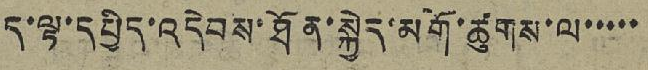ད་ལྟ་དཔྱིད་འདེབས་ཐོན་སྐྱེད་མགོ་ཚུགས་ལ་་་་་
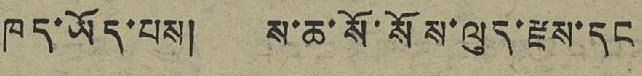ཁད་ཡོད་པས། ས་ཆ་སོ་སོས་ལུད་རྫས་དང
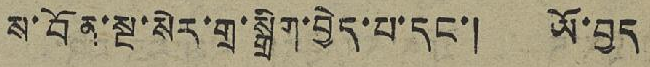ས་བོན་སྔ་སེར་གྲ་སྒྲིག་བྱེད་པ་དང་། ཡོ་བྱད
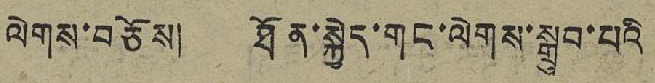ལེགས་བཅོས། ཐོན་སྐྱེད་གང་ལེགས་སྒྲུབ་པའི
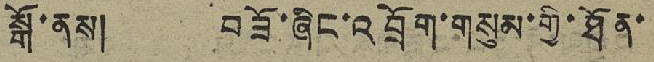སྒོ་ནས། བཟོ་ཞིང་འབྲོག་གསུམ་གྱི་ཐོན་
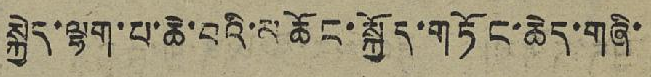སྐྱེད་ལྷག་པ་ཆེ་བའི་མཆོང་སྐྱོད་གཏོང་ཆེད་གཞི་
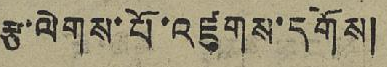རྩ་ལེགས་པོ་འཛུགས་དགོས།
